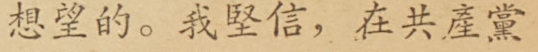想望的。我堅信，在共產黨
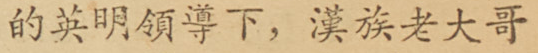的英明領導下，漢族老大哥
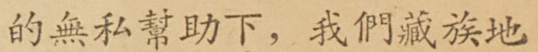的無私幫助下，我們藏族地
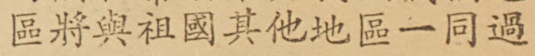區將與祖國其他地區一同過
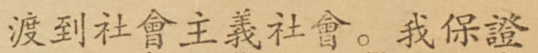渡到社會主義社會。我保證
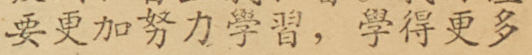要更加努力學習，學得更多
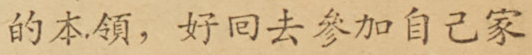的本領，好囘去參加自己家
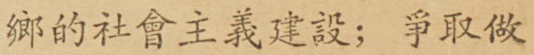鄉的社會主義建設；爭取做
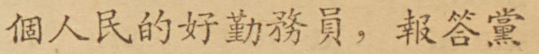個人民的好勤務員，報答黨
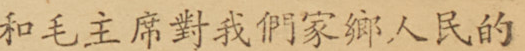和毛主席對我們家鄉人民的
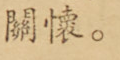關懷。
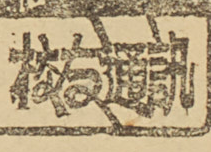校友通訊
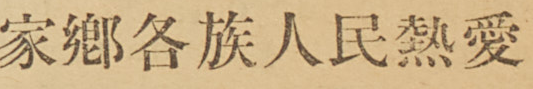家鄉各族人民熱愛
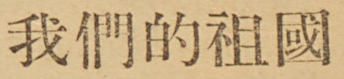我們的祖國
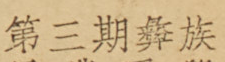第三期彝族
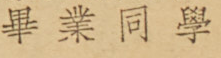畢 業 同 學
